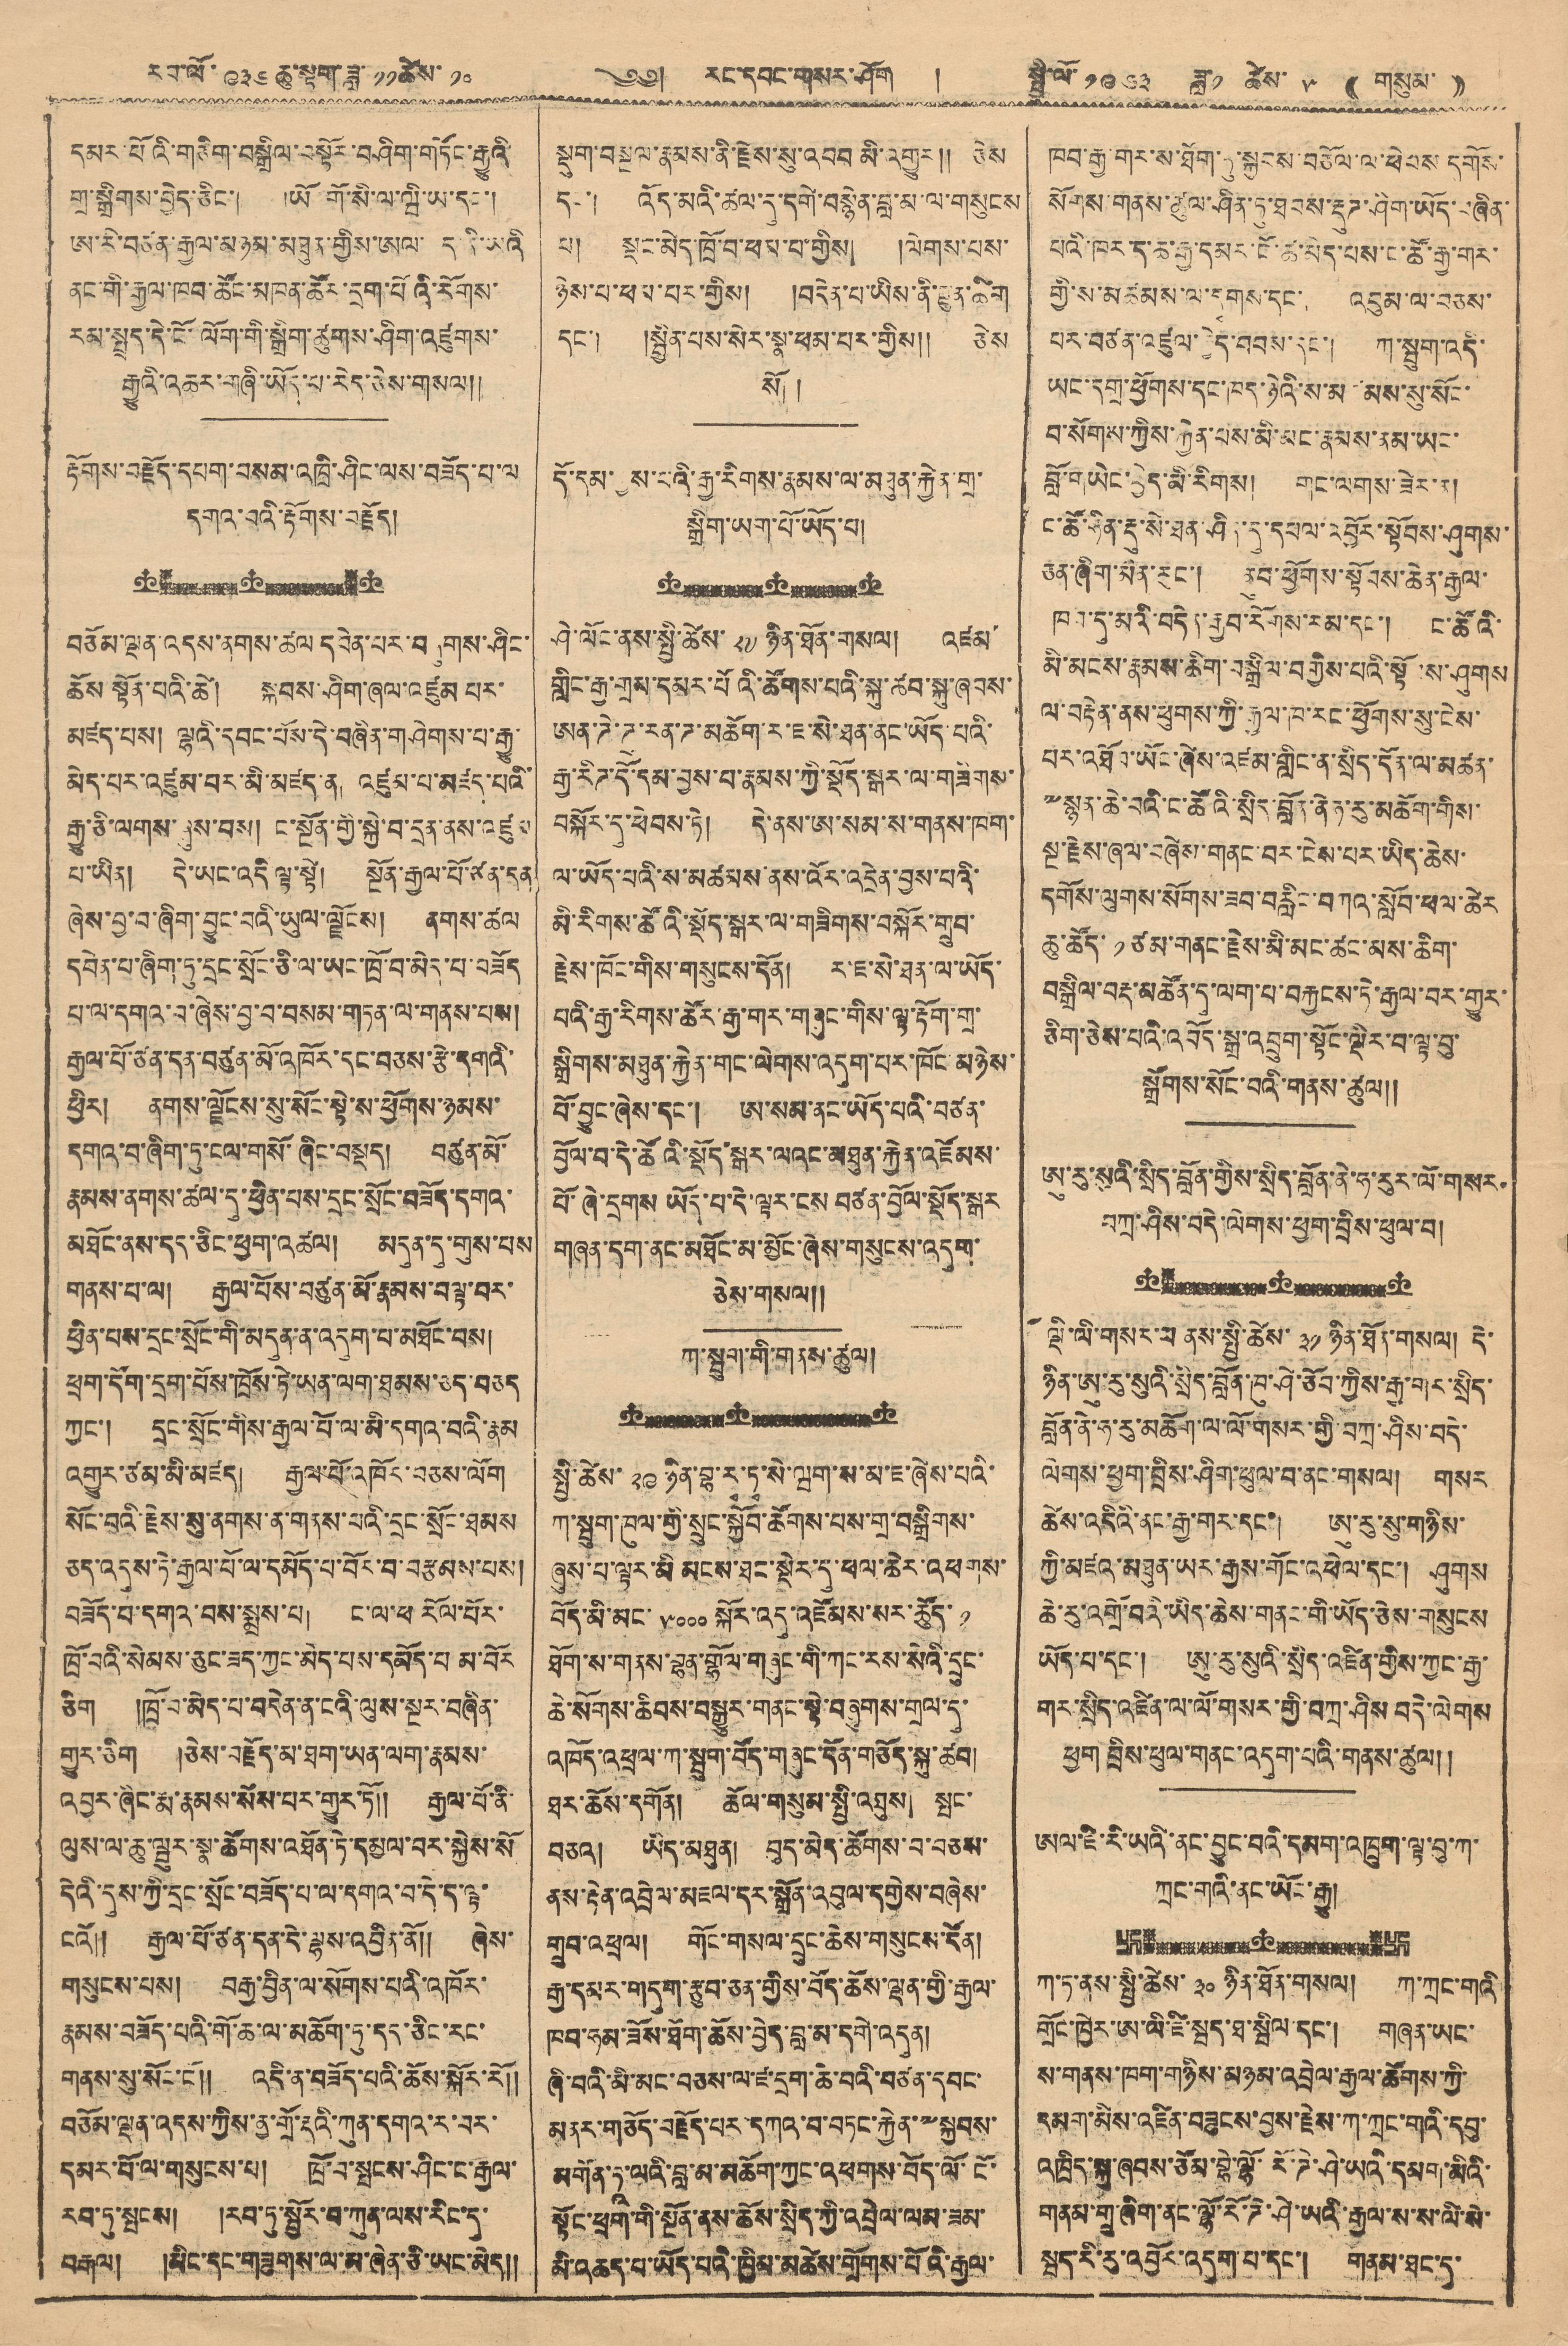རབ་ལོ ༩༣༦ ཆུ་སྟག་ཟླ་ ༡༡ ཚེས་ ༡༠ ༄༅། རང་དབང་གསར་ཤོག ། སྤྱི་ལོ་ ༡༩༦༣ ཟླ་ ༡ ཚེས་ ༥ (( གསུམ་ ))
དམར་པོའི་གཅིག་བསྒྲིལ་བསྟོར་བཤིག་གཏོང་རྒྱུའི་
གྲ་སྒྲིགས་བྱེད་ཅིང་། ཡོ་གོ་སི་ལ་ཝི་ཡ་དང་།
ཨ་རི་བཙན་རྒྱལ་མཉམ་མཐུན་གྱིས་ཨལ་བྷད་ནི་ཡའི་
ནང་གི་རྒྱལ་ཁབ་ཚོང་མཁན་ཚོར་དྲག་པོའི་རོགས་
རམ་སྤྲད་དེ་ངོ་ལོག་གི་སྒྲིག་ཚུགས་ཤིག་འཛུགས་
རྒྱུའི་འཆར་གཞི་ཡོད་པ་རེད་ཅེས་གསལ།།
རྟོགས་བརྗོད་དཔག་བསམ་འཁྲི་ཤིང་ལས་བཟོད་པ་ལ
དགའ་བའི་རྟོགས་བརྗོད།
བཅོམ་ལྡན་འདས་ནགས་ཚལ དབེན་པར་བཞུགས་ཤིང་
ཆོས་སྟོན་པའི་ཚེ། སྐབས་ཤིག་ཞལ་འཛུམ པར་
མཛད་པས། ལྷའི་དབང་པོས་དེ་བཞིན་གཤེགས་པ་རྒྱུ་
མེད་པར་འཛུམ་པར་མི་མཛད་ན། འཛུམ་པ་མཛད་པའི་
རྒྱ་ཅི་ལགས་ཞུས་བས། ང་སྔོན་གྱི་སྐྱེ་བ་དྲན་ནས་འཛུམ
པ་ཡིན། དེ་ཡང་འདི ལྟ་སྟེ། སྔོན་རྒྱལ་པོ་ཙན་དན
ཞེས་བྱ་བ་ཞིག་བྱུང་བའི་ཡུལ་ལྗོངས། ནགས་ཚལ
དབེན་པ་ཞིག་ཏུ་དྲང་སྲོང་ཅི་ལ་ཡང་ཁྲོ་བ་མེད་བཟོད
པ་ལ་དགའ་བ་ཞེས་བྱ་བ་བསམ་གཏན་ལ་གནས་པས།
རྒྱལ་པོ་ཙན་དན་བཙུན་མོ་འཁོར་དང་བཅས་རྩེ་དགའི་
ཕྱིར། ནགས་ལྗོངས་སུ་སོང་སྟེ་ས་ཕྱོགས་ཉམས་
དགའ་བ་ཞིག་ཏུ་ངལ་གསོ་ཞིང་བསྡད། བཙུན་མོ་
རྣམས་ནགས་ཚལ་དུ་ཕྱིན་པས་དྲག་སྲོང་བཟོད་དགའ་
མཐོང་ན་དད་ཅིང་ཕྱག་འཚལ། མདུན་དུ་གུས་པས་
གནས་པ་ལ། རྒྱལ་པོས་བཙུན་མོ་རྣམས་བལྟ་བར་
ཕྱིན་པས་དྲང་སྲོང་གི་མདུན་ན་འདུག་པ་མཐོང་བས།
ཕྲག་དོག་དྲག་པོས་ཁྲོས་ཏེ་ཡན་ལག་ཐམས་ཅད་བཅད་
ཀྱང་། དྲང་སྲོང་གིས་རྒྱལ་པོ་ལ་མི་དགའ་བའི་རྣམ
འགྱུར་ཙམ་མི་མཛད། རྒྱལ་པོ་འཁོར་བཅས་ལོག
སོང་བའི་རྗེས་སུ་ནགས་ན་གནས་པའི་དྲང་སྲོང་ཐམས
ཅད་འདུས་ཏེ་རྒྱལ་པོ་ལ་དམོད་པ་བོར་བ་བརྩམས་པས།
བཟོད་པ་དགའ་བས་སྨྲས་པ། ང་ལ་ཕ་ རོལ་པོར་
ཁྲོ་བའི་སེམས་ཅུང་ཟད་ཀྱང་མེད་པས་དམོད་པ མ་བོར
ཅོག །ཁྲོ་བ་མེད་བདེན་ན་ངའི་ལུས་སྔར་བཞིན་
གྱུར་ཅིག །ཅེས་བརྗོད་མ་ཐག་ཡན་ལག་རྣམས་
འབྱར་ཞིང་རྨ་རྣམས་སོས་པར་གྱུར་ཏོ།། རྒྱལ་པོ་ནི་
ལུས་ལ་ཆུ་ཝུར་སྣ་ཚོགས་འཐོན་ཏེ་དམྱལ་བར་སྐྱེས་སོ
དེའི་དུས་ཀྱི་དྲང་སྲོང་བཟོད་པ་ལ་དགའ་བ་དེ་ད་ལྟ་
ངའོ།། རྒྱལ་པོ་ཙན་དན་དེ་ལྷས་འབྱིན་ནོ།། ཞེས་
གསུངས་པས། བརྒྱ་བྱིན་ལ་སོགས་པའི་འཁོར་
རྣམས་བཟོད་པའི་གོ་ཆ་ལ་མཆོག་ཏུ་དད་ཅིང་རང་
གནས་སུ་སོང་ངོ།། འདི་ན་བཟོད་པའི་ཆོས་སྐོར་རོ།།
བཅོམ་ལྡན་འདས་ཀྱིས་ན་གྲོ་རྡའི་ཀུན་དགའ་ར་བར་
དམར་པོ་ལ་གསུངས་པ། ཁྲོ་བ་སྤངས་ཤིང་ང་རྒྱལ་
རབ་ཏུ་སྤངས། རབ་ཏུ་སྦྱོར་བ་ཀུན་ལས་རིང་དུ་
བརྒལ། །མིང་དང་གཟུགས་ལ་མ་ཞེན་ཅི་ཡང་མེད།།
སྡུག་བསྔལ་རྣམས་ནི་རྗེས་སུའི་འབབ མི་འགྱུར།། ཅེས
དང་། འོད་མའི་ཚལ་དུ་དགེ་བསྙེན་བླ་མ་ལ་གསུངས
པ། སྡང་མེད་ཁྲོ་བ་ཕམ་པ་གྱིས། །ལེགས་པས་
ཉེས་པ་ཕལ་པར་གྱིས། །བདེན་པ་ཡིས་ནི་གྲུན་ཚིག
དང་། །སྦྱིན་པས་སེར་སྣ་ཕམ་པར་གྱིས།། ཅེས
སོ། །
དོ་དམ་རྒྱས་པའི་རྒྱ་རིགས་རྣམས་པ་མཐུན་རྐྱེན་གྲ་
སྒྲིག་ཡག་པོ་ཡོད་པ།
ཤེ་ལོང་ནས་སྤྱི་ཚེས་ ༢༧ ཉིན་ཐོན་གསལ། འཛམ་
གླིང་རྒྱ་གྲས་དམར་པོའི་ཚོགས་པའི་སྐུ་ཚབ་སྐུ་ཞབས་
ཨན་ཌེ་ཌ་རན་ཌ་མཆོག་ར་ཇ་སེ་ཐན་ནང་ཡོད་པའི་
རྒྱ་རིཊ་དོ་དམ་བྱས་པ་རྣམས་ཀྱི་སྡོད་སྒར་ལ་གཟིགས་
བསྐོར་དུ་ཕེབས་ཏེ། དེ་ནས་ཨ་སམ་ས་གནས་ཁག་
ལ་ཡོད་པའི་ས་མཚམས་ནས་འོར་འདྲེན་བྱས་པའི་
མི་རིགས་ཚོའི་སྡོད་སྒར་ལ་གཟིགས་བསྐོར་གྲུབ་
རྗེས་ཁོང་གིས་གསུངས་དོན། ར་ཇ་སེ་ཐན་ལ་ཡོད་
པའི་རྒྱ་རིགས་ཚོར་རྒྱ་གར་གཞུང་གིས་ལྟ་རྟོག་གྲ་
སྒྲིགས་མཐུན་རྐྱེན་གང་ལེགས་འདུག་པར་ཁོང་མཉེས་
པོ་བྱུང་ཤེས་དང་། ཨ་སམ་ནང་ཡོད་པའི་བཙན་
བྱོལ་བ་དེ་ཚོའི་སྡོད་སྒར་ལའང་མཐུན་རྐྱེན་འཛོམས་
པོ་ཞེ་དྲགས ཡོད་པ་དེ་ལྟར་ངས བརྩན་བྱོལ་སྡོད་སྒར
གཞན་དག་ནང་མཐོང་མ་མྱོང་ཞེས་གསུངས་འདུག་
ཅེས་གསལ།།
ཀ་སྦུག་གི་གནས་ཚུལ།
སྤྱི་ཚེས་ ༢༩ ཉིན་བྷ་རྭ་ཏྭ་སེ་ཝག་ས་མ་ཇ་ཞེས་པའི་
ཀ་སྦུག་ཁུལ་གྱི་སྲུང་སྐྱོབ་ཚོགས་པས་གྲ་བསྒྲིགས་
ཞུས་པ་ལྟར་མི མངས་ཐང་སྡེར་དུ་ཕལ་ཆེར་འཕགས་
བོད་མི་མང་ ༥༠༠༠ སྐོར་འདུ་འཛོམས་སར་ཚོུད་ ༡
ཐོག་ས་གནས་བྷན་གྷོལ་གཞུང་གི་ཀང་རས་སེའི་དྲུང་
ཆེ་སོགས་ཆིབས་བསྒྱུར་གནང་སྟེ་བཞུགས་གྲལ་དུ་
འཁོད་འཕྲལ་ཀ་སྦུག་བོད་གཞུང་དོན་གཅོད་སྐུ་ཚབ།
ཐར་ཆོས་དགོན། ཆོལ་གསུམ་སྤྱི་འཐུས། སྤང་
བཅའ། ཡིད་མཐུན། བུད་མེད་ཚོགས་བ་བཅས་
ནས་རྟེན་འབྲེལ་མཇལ་དར་སྒྲོན་འབུལ་དགྱེས་བཞེས་
གྲུབ་འཕྲལ། གོང་གསལ་དྲུང་ཆེས་གསུངས་དོན།
རྒྱ་དམར་གདུག་རྩུབ་ཅན་གྱིས་བོད་ཆོས་ལྡན་གྱི་རྒྱལ་
ཁབ་ཧམ་ཟོས་ཐོག་ཆོས་བྱེད་བླ་མ་དགེ་འདུན།
ཞི་བའི་མི་མང་བཅས་ལ་ཛ་དྲག་ཆེ་བའི་བཙན་དབང་
མནར་གཅོད་བརྗོད་པར་དཀའ་བ་བཏང་རྐྱེན་༸སྐྱབས་
མགོན་ཏཱ་ལའི་བླ་མ་མཆོག་ཀྱང་འཕགས་བོད་ལོ་ངོ་
སྟོང་ཕྲག་གི་སྔོན་ནས་ཆོས་སྲོད་ཀྱི་འབྲེལ་ལམ་ཟམ་
མི་འཆད་པ་ཡོད་པའི་ཁྱིམ་མཚེས་གྲོགས་པོའི་རྒྱལ་
ཁབ་རྒྱ་གར་ས་ཐོག་ཏུ་སྐྱབས་བཅོལ་ལ་ཕེབས དགོས་
སོགས་གནས་ཚུལ་ཤིན་ཏུ་ཐབས་རྡུཊ་ཤིག་ཡོད་བཞིན་
པའི་ཁར་ད་ཆ་རྒྱ་དམར་ངོ་ཚ་མེད་པས་ང་ཚོ་རྒྱ་གར་
གྱི་ས་མཚམས་ལ་དྭགས་དང་། འབུམ་ལ་བཅས་
པར་བཙན་འཛུལ་བྱེད་བབས་དང་། ཀ་སྦུག་འདི་
ཡང་དགྲ་ཕྱོགས་དང་ཁད་ཉིའི་ས་མཚམས་སུ་སོང་
བ་སོགས་ཀྱིས་རྐྱེན་པས་མི་མང་རྣམས་ནམ་ཡང་
བློ་གཡེང་བྱེད་མི་རིགས། གང་ལགས་སེར་ན།
ང་ཚོ་ཧིན་རྡུ་སེ་ཐན་ཤིད་དུ་དཔལ་འབྱོར་སྟོབས་ཤུགས་
ཅན་ཞིག་མིན་རུང་། ནུབ་ཕྱོགས་སྟོབས་ཆེན་རྒྱལ་
ཁབ་དུ་མའི་བདེན་རྒྱབ་རོགས་རམ་དང་། ང་ཚོའི་
མི་མངས་རྣམས་ཆིག་བསྒྲིལ་བགྱིས་པའི་སྟོབས་ཤུགས
ལ་བརྟེན་ནས་ཕུགས་ཀྱི་རྒྱལ་ཁབ་རང་ཕྱོགས་སུ་ངེས་
པར་མཐོབ་ཡོང་ཞེས་འཛམ་གླིང་ན་སྲིད་དོན་ལ་མཚན་
༸སྙན་ཆེ་བའི་ང་ཚོའི་སྲིད་བློན་ནེཧ་རུ་མཆོག་གིས་
སྔ་རྗེས་ཞལ་བཞེས་གནང་བར་ངེས་པར་ཡིད་ཆེས་
དགོས་ལུགས་སོགས་ཟབ་བརླིང་བཀའ་སློབ་ཕལ་ཆེར
ཆུ་ཚོད་ ༡ ཙམ་གནང་རྗེས་མི་མང་ཚང་མས་ཆིག་
བསྒྲིལ་བརྡ་མཚོན་དུ་ལག་པ་བརྐྱངས་ཏེ་རྒྱལ་བར་གྱུར་
ཅིག་ཅེས་པའི་འབོད་སྒྲ་འབྲུག་སྟོང་ལྡིར་བ་ལྟ་བུ་
སྒྲོགས་སོང་བའི་གནས་ཚུལ།།
ཨུ་རུ་སུའི་སྲིད་བློན་གྱིས་སྲིད་བློན་ནེ་ཧེ་རུར་ལོ་གསར་
བཀྲ་ཤིས་བདེ་ལེགས་ཕྱག་བྲིས་ཕུལ་བ།
ལྡི་ལི་གསར་པ ནས་སྤྱི་ཚེས་ ༣༡ ཉིན་ཐོན་གསལ། དེ་
ཉིན་ཨུ་རུ་སུའི་སྲིད་བློན་ཁུ་ཤེ་ཅོབ་ཀྱིས་རྒྱ་གར་སྲིད་
བློན་ནེ་ཧ་རུ་མཆོག་ལ་ལོ་གསར་གྱི་བཀྲ་ཤིས་བདེ་
ལེགས་ཕྱག་བྲིས་ཤིག་ཕུལ་བ་ནང་གསལ། གསར
ཚེས་འདིའི་ནང་རྒྱ་གར་དང་། ཨུ་རུ་སུ་གཉིས་
ཀྱི་མཛའ་མཐུན་ཡར་རྒྱས་གོང་འཕེལ་དང་། ཤུགས
ཆེ་རུ་འགྲོ་བའི་ཡིད་ཆེས་གནང་གི་ཡོད་ཅེས་གསུངས
ཡོད་པ་དང་། ཨུ་རུ་སུའི་སྲིད་འཛིན་གྱིས་ཀྱང་རྒྱ་
གར་སྲིད་འཛིན་ལ་ལོ་གསར་གྱི་བཀྲ་ཤིས བདེ་ལེགས་
ཕྱག བྲིས་ཕུལ་གནང་འདུག་པའི་གནས་ཚུལ།།
ཨལ་ཇི་རི་ཡའི་ནང་བྱུང་བའི་དམག་འཁྲུག་ལྟ་བུ་ཀ་
ཀྲང་གའི་ནང་ཡོང་རྒྱུ།
ཀ་ཏ་ནས་སྤྱི་ཚེས་ ༣༠ ཉིན་ཐོན་གསལ། ཀ་ཀྲང་གའི་
གྲོང་ཁྱེར་ཨ་ལིའི་ཛི་སྦད་ཐ་སྦིལ་དང་། གཞན་ཡང་
ས་གནས་ཁག་གཉིས་མཉམ་འབྲེལ་རྒྱལ་ཚོགས་ཀྱི་
དམག་མིས་འཛིན་བཟུངས་བྱས་རྗེས་ཀ་ཀྲང་གའི་དབུ་
འཁྲིད་སྐུ་ཞབས་ཅོམ་བྷེ་ལྷོ་རོ་ཌེ་ཤེ་ཡའི་དམག་མིའི་
གནམ་གྲུ་ཞིག་ནང་ལྷོ་རོ་ཌེ་ཤེ་ཡའི་རྒྱལ་ས་ས་ལི་སེ་
སྦད་རི་རུ་འབྱོར་འདུག་པ་དང་། གནམ་ཐང་དུ་
